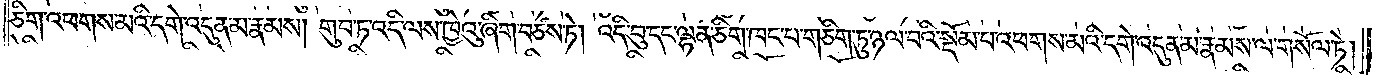ཅིག་འཕགས་མའི་དགེ་འདུན་མ་རྣམས། གུབ་ཏ་འདི་ལས་ཁྱེའུ་ཞིག་བཙས་ཏེ། འདི་བུ་དང་ལྷན་ཅིག་ཁང་པ་གཅིག་ཏུ་ཉལ་བའི་སྡོམ་པ་འཕགས་མའི་དགེ་འདུན་མ་རྣམས་ལ་གསོལ་ཏེ།
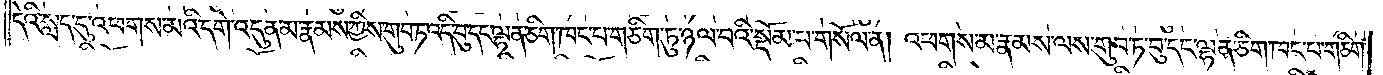དེའི་སླད་དུ་འཕགས་མའི་དགེ་འདུན་མ་རྣམས་ཀྱིས་གུབ་ཏ་འདི་བུ་དང་ལྷན་ཅིག་ཁང་པ་གཅིག་ཏུ་ཉལ་བའི་སྡོམ་པ་གསོལ་ན། འཕགས་མ་རྣམས་ལས་གུབ་ཏ་བུ་དང་ལྷན་ཅིག་ཁང་པ་གཅིག་
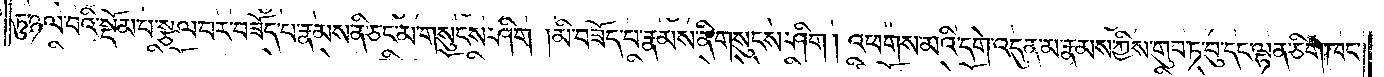ཏུ་ཉལ་བའི་སྡོམ་པ་སྩལ་བར་བཟོད་པ་རྣམས་ནི་ཅང་མ་གསུངས་ཤིག །མི་བཟོད་པ་རྣམས་ནི་གསུངས་ཤིག། འཕགས་མའི་དགེ་འདུན་མ་རྣམས་ཀྱིས་གུབ་ཏ་བུ་དང་ལྷན་ཅིག་ཁང་
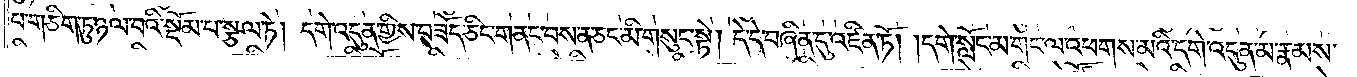པ་གཅིག་ཏུ་ཉལ་བའི་སྡོམ་པ་སྩལ་ཏེ། དགེ་འདུན་གྱི་བཟོད་ཅིང་གནང་བས་ན་ཅང་མི་གསུང་སྟེ། དེ་དེ་བཞིན་དུ་འཛིན་ཏོ། །དགེ་སློང་མ་གང་ལ་འཕགས་མའི་དགེ་འདུན་མ་རྣམས་
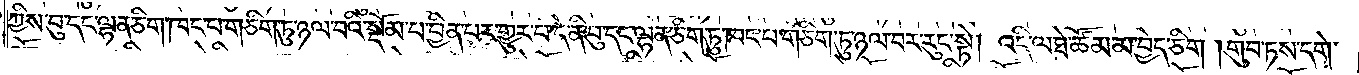ཀྱིས་བུ་དང་ལྷན་ཅིག་ཁང་པ་གཅིག་ཏུ་ཉལ་བའི་སྡོམ་པ་བྱིན་པར་གྱུར་པ་དེ་ནི་བུ་དང་ལྷན་ཅིག་ཏུ་ཁང་པ་གཅིག་ཏུ་ཉལ་བར་རུང་སྟེ། འདི་ལ་ཐེ་ཚོམ་མ་བྱེད་ཅིག །གུབ་ཏས་དགེ་
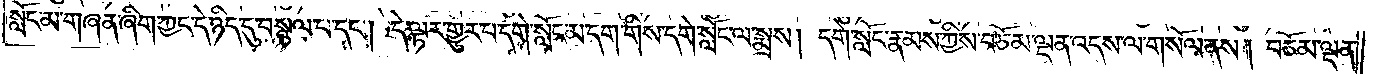སློང་མ་གཞན་ཞིག་ཀྱང་དེ་ཉིད་དུ་བསྙལ་པ་དང༌། དེ་ལྟར་གྱུར་པ་དགེ་སློང་མ་དག་གིས་དགེ་སློང་ལ་སྨྲས། དགེ་སློང་རྣམས་ཀྱིས་བཅོམ་ལྡན་འདས་ལ་གསོལ་ནས། བཅོམ་ལྡན་
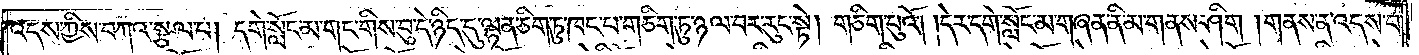འདས་ཀྱིས་བཀའ་སྩལ་པ། དགེ་སློང་མ་གང་གིས་བུ་དེ་ཉིད་དུ་ལྷན་ཅིག་ཏུ་ཁང་པ་གཅིག་ཏུ་ཉལ་བར་རུང་སྟེ། གཅིག་པུའོ། །དེར་དགེ་སློང་མ་གཞན་ནི་མ་གནས་ཤིག །གནས་ན་འདས་པ་
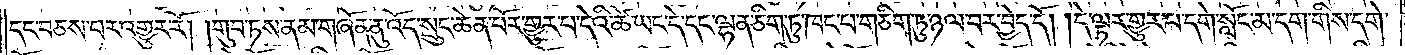དང་བཅས་པར་འགྱུར་རོ། །གུབ་ཏས་ནམ་གཞོན་ནུ་འོད་སྲུང་ཆེན་པོར་གྱུར་པ་དེའི་ཚེ་ཡང་དེ་དང་ལྷན་ཅིག་ཏུ་ཁང་པ་གཅིག་ཏུ་ཉལ་བར་བྱེད་དོ། །དེ་ལྟར་གྱུར་པ་དགེ་སློང་མ་དག་གིས་དགེ་
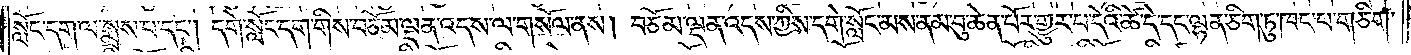སློང་དག་ལ་སྨྲས་པ་དང༌། དགེ་སློང་དག་གིས་བཅོམ་ལྡན་འདས་ལ་གསོལ་ནས། བཅོམ་ལྡན་འདས་ཀྱིས་དགེ་སློང་མས་ནམ་བུ་ཆེན་པོར་གྱུར་པ་དེའི་ཚེ་དེ་དང་ལྷན་ཅིག་ཏུ་ཁང་པ་གཅིག་
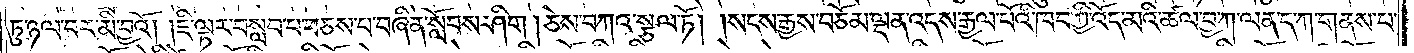ཏུ་ཉལ་བར་མི་བྱའོ། །ཇི་ལྟར་བསླབ་པ་བཅས་པ་བཞིན་སློབས་ཤིག །ཅེས་བཀའ་སྩལ་ཏོ། །སངས་རྒྱས་བཅོམ་ལྡན་འདས་རྒྱལ་པོའི་ཁབ་ཀྱི་འོད་མའི་ཚལ་བྱ་ཀ་ལན་ད་ཀ་གནས་པ་
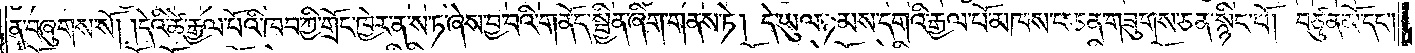ན་བཞུགས་སོ། །དེའི་ཚེ་རྒྱལ་པོའི་ཁབ་ཀྱི་གྲོང་ཁྱེར་ན་ས་ཏ་ཞེས་བྱ་བའི་གནོད་སྦྱིན་ཞིག་གནས་ཏེ། དེ་ཡུལ་ཉམས་དགའི་རྒྱལ་པོ་མཁས་པ་ཅན་གཟུགས་ཅན་སྙིང་པོ། བཙུན་མོ་དང༌།
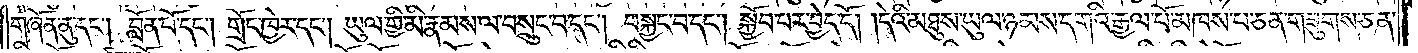བཞོན་ནུ་དང༌། བློན་པོ་དང༌། གྲོང་ཁྱེར་དང༌། ཡུལ་གྱི་མི་རྣམས་ལ་བསྲུང་བ་དང༌། བསྐྱང་བ་དང༌། སྐྱོབ་པར་བྱེད་དོ། །དེའི་མཐུས་ཡུལ་ཉམས་དགའི་རྒྱལ་པོ་མཁས་པ་ཅན་གཟུགས་ཅན་
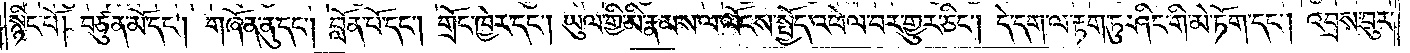སྙིང་པོ། བཙུན་མོ་དང༌། གཞོན་ནུ་དང༌། བློན་པོ་དང༌། གྲོང་ཁྱེར་དང༌། ཡུལ་གྱི་མི་རྣམས་ལ་ལོངས་སྤྱོད་འཕེལ་བར་གྱུར་ཅིང༌། དེ་དག་ལ་རྟག་ཏུ་ཤིང་གི་མེ་ཏོག་དང༌། འབྲས་བུར་
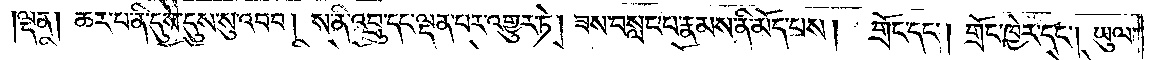།ལྡན། ཆར་པ་ནི་དུས་དུས་སུ་འབབ། ས་ནི་འབྲུ་དང་ལྡན་པར་འགྱུར་ཏེ། ཟས་བསླང་པ་རྣམས་ནི་མོད་པས། གྲོང་དང༌། གྲོང་ཁྱེར་དང༌། ཡུལ་
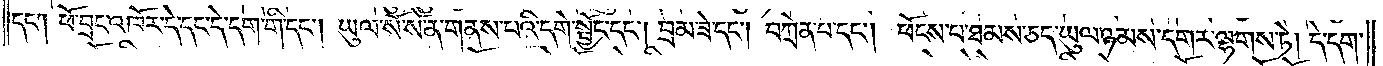དང༌། ཕོ་བྲང་འཁོར་དེ་དང་དེ་དག་གི་དང༌། ཡུལ་སོ་སོ་ན་གནས་པའི་དགེ་སྦྱོང་དང༌། བྲམ་ཟེ་དང༌། བཀྲེན་པ་དང༌། ཕོངས་པ་ཐམས་ཅད་ཡུལ་ཉམས་དགར་ལྷགས་ཏེ། དེ་དག་
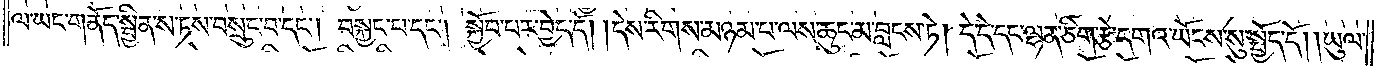ལ་ཡང་གནོད་སྦྱིན་ས་ཏས་བསྲུང་བ་དང༌། བསྐྱང་པ་དང༌། སྐྱོབ་པར་བྱེད་དོ། །དེས་རིགས་མཉམ་པ་ལས་ཆུང་མ་བླངས་ཏེ། དེ་དེ་དང་ལྷན་ཅིག་རྩེ་དགའ་ཡོངས་སུ་སྤྱོད་དོ། །ཡུལ་
